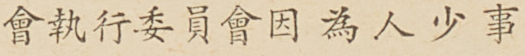會執行委員會因為人少事
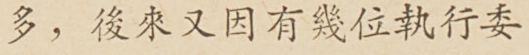多，後來又因有幾位執行委
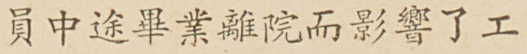員中途畢業離院而影響了工
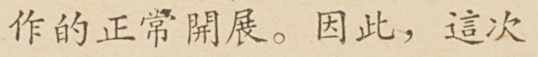作的正常開展。因此，這次
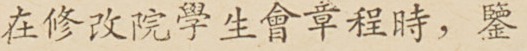在修改院學生會章程時，鑒
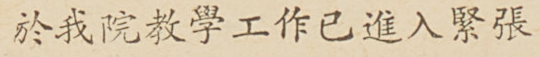於我院教學工作已進入緊張
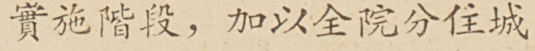實施階段，加以全院分住城
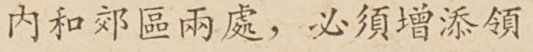內和郊區兩處，必須增添領
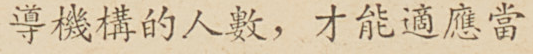導機構的人數，才能適應當
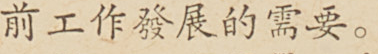前工作發展的需要。
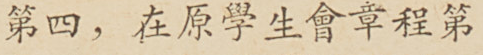第四，在原學生會章程第
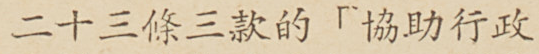二十三條三款的「協助行政
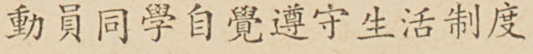動員同學自覺遵守生活制度
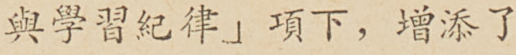與學習紀律」項下，增添了
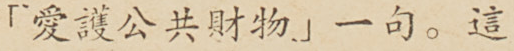「愛護公共財物」一句。這
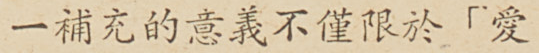一補充的意義不僅限於「愛
